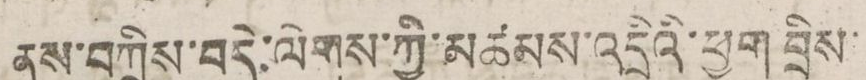ནས་བཀྲིས་བདེ་ལེགས་ཀྱི་མཚམས་འདྲིའི་ཕྱག བྲིས་
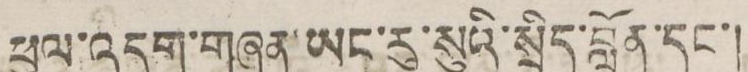ཕུལ་འདུག་གཞན་ཡང་རུ་སུའི་སྲིད་བློན་དང་།
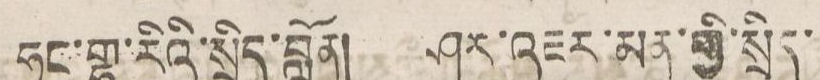ཧང་གྷ་རིའི་སྲིད་བློན། ཤར་འཇར་མན་གྱི་སྲིད་
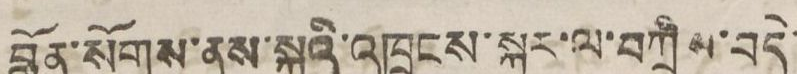བློན་སོགས་ནས་སྐུའི་འཁྲུངས་སྐར་ལ་བཀྲིས་བདེ་
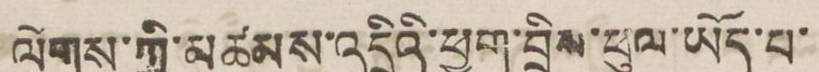ལེགས་ཀྱི་མཚམས་འདྲིའི་ཕྱག་བྲིས་ཕུལ་ཡོད་པ་
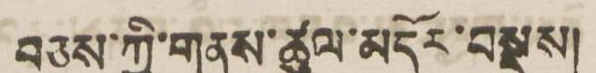བཅས་ཀྱི་གནས་ཚུལ་མདོར་བསྡུས།
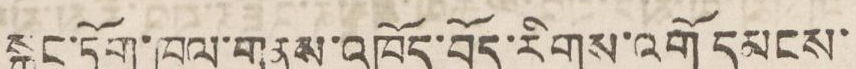སྒང་ཏོག་ཁུལ་གནས་འཁོད་བོད་རིགས་འགོ དམངས་
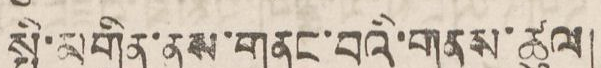སྤྱི་མགྲིན་ནས་གནང་བའི་ཚུལ།
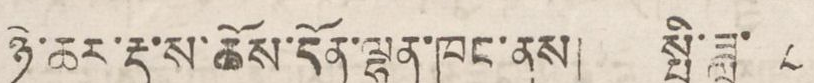ཉེ་ཆར་རྡ་ས་ཆོས་དོན་ལྷན་ཁང་ནས། སྤྱི་ཟླ ༨
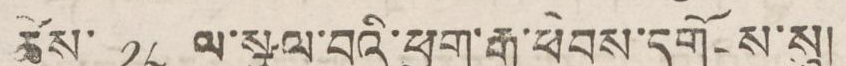ཚེས་ ༡༨ ལ་སྩལ་བའི་ཕྱག་རྒྱ་ཕེབས་དགོངས་སུ།
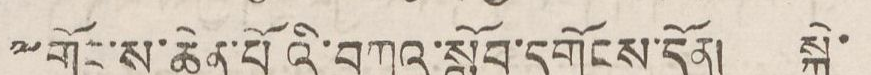༸གོང་ས་ཆེན་པོའི་བཀའ་སློབ་དགོངས་དོན། སྐྱེ་
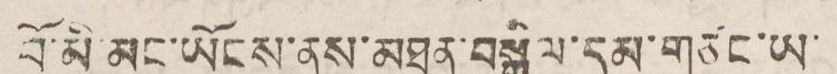བོ་མི་མང་ཡོངས་ནས་མཐུན་བསྒྲིལ་དམ་གཙང་ཡ་
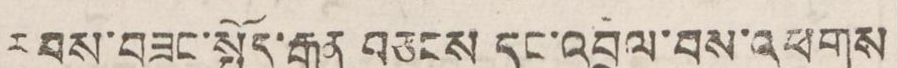རབས་བཟང་སྤྱོད་རྒྱུན་བཅངས དང་འབྲལ་བས་འཕགས
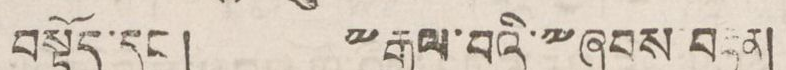བསྟོད་དང་། ༸རྒྱལ་བའི་༸ཞབས བརྟན།
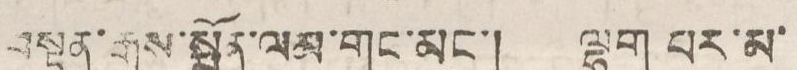བསྟན་རྒྱས་སྨོན་ལམ་གང་མང་། ལྷག པར་མ་
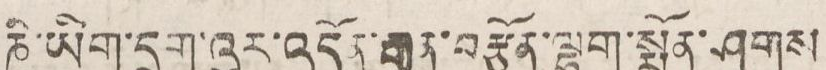ཎི་ཡིག་དྲུག་འུག་འདོན་རྒྱུན་བཙོན་ལྷག་སྨོན་ཤུགས
